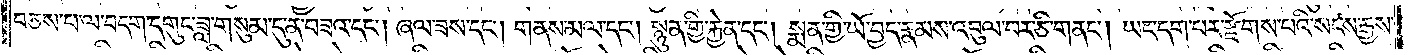བཅས་པ་ལ་བདག་དགུང་ཟླ་གསུམ་དུ་ན་བཟའ་དང༌། ཞལ་ཟས་དང༌། གནས་མལ་དང༌། སྙུན་གྱི་རྐྱེན་དང༌། སྨན་གྱི་ཡོ་བྱད་རྣམས་འབུལ་བར་ཅི་གནང༌། ཡང་དག་པར་རྫོགས་པའི་སངས་རྒྱས་
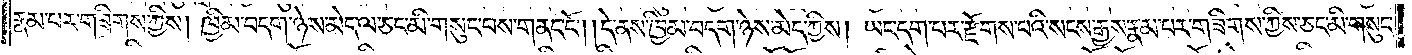རྣམ་པར་གཟིགས་ཀྱིས། ཁྱིམ་བདག་ཉེས་མེད་ལ་ཅང་མི་གསུང་བས་གནང་ངོ༌། །དེ་ནས་ཁྱིམ་བདག་ཉེས་མེད་ཀྱིས། ཡང་དག་པར་རྫོགས་པའི་སངས་རྒྱས་རྣམ་པར་གཟིགས་ཀྱིས་ཅང་མི་གསུང་
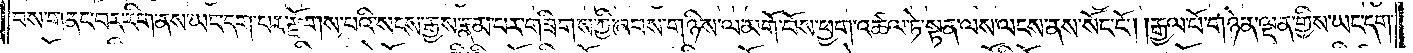བས་གནང་བར་རིག་ནས་ཡང་དག་པར་རྫོགས་པའི་སངས་རྒྱས་རྣམ་པར་གཟིགས་ཀྱི་ཞབས་གཉིས་ལ་མགོ་བོས་ཕྱག་འཚལ་ཏེ་སྟན་ལས་ལངས་ནས་སོང་ངོ༌། །རྒྱལ་པོ་གཉེན་ལྡན་གྱིས་ཡང་དག་
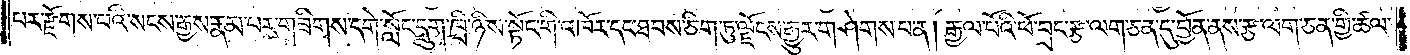པར་རྫོགས་པའི་སངས་རྒྱས་རྣམ་པར་གཟིགས་དགེ་སློང་དྲུག་ཁྲི་ཉིས་སྟོང་གི་འཁོར་དང་ཐབས་ཅིག་ཏུ་ལྗོངས་རྒྱུར་གཤེགས་པ་ན། རྒྱལ་པོའི་ཕོ་བྲང་རྩ་ལག་ཅན་དུ་བྱོན་ནས་རྩ་ལག་ཅན་གྱི་ཚལ་
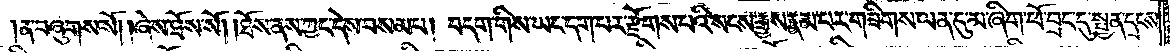ན་བཞུགས་སོ། །ཞེས་ཐོས་སོ། །ཐོས་ནས་ཀྱང་དེས་བསམ་པ། བདག་གིས་ཡང་དག་པར་རྫོགས་པའི་སངས་རྒྱས་རྣམ་པར་གཟིགས་ལན་དུ་མ་ཞིག་ཕོ་བྲང་དུ་སྤྱན་དྲངས་
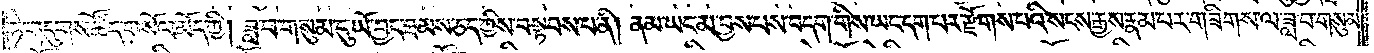ཏེ་གདུགས་ཚོད་གསོལ་མོད་ཀྱི། ཟླ་བ་གསུམ་དུ་ཡོ་བྱད་ཐམས་ཅད་ཀྱིས་བསྟབས་པ་ནི། ནམ་ཡང་མ་བྱས་པས་བདག་གིས་ཡང་དག་པར་རྫོགས་པའི་སངས་རྒྱས་རྣམ་པར་གཟིགས་ལ་ཟླ་བ་གསུམ་
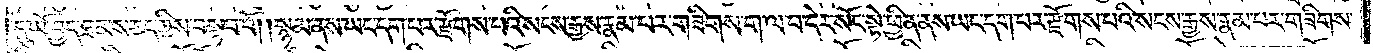དུ་ཡོ་བྱད་ཐམས་ཅད་ཀྱིས་བསྟབ་བོ། །སྙམ་ནས་ཡང་དག་པར་རྫོགས་པའི་སངས་རྒྱས་རྣམ་པར་གཟིགས་ག་ལ་བ་དེར་སོང་སྟེ་ཕྱིན་ནས་ཡང་དག་པར་རྫོགས་པའི་སངས་རྒྱས་རྣམ་པར་གཟིགས་
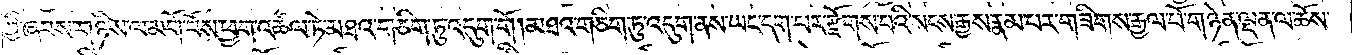ཀྱི་ཞབས་གཉིས་ལ་མགོ་བོས་ཕྱག་འཚལ་ཏེ་མཐའ་གཅིག་ཏུ་འདུག་གོ།མཐའ་གཅིག་ཏུ་འདུག་ནས་ཡང་དག་པར་རྫོགས་པའི་སངས་རྒྱས་རྣམ་པར་གཟིགས་རྒྱལ་པོ་གཉེན་ལྡན་ལ་ཆོས་
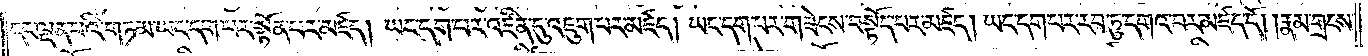དང་ལྡན་པའི་གཏམ་ཡང་དག་པར་སྟོན་པར་མཛད། ཡང་དག་པར་འཛིན་དུ་འཇུག་པར་མཛད། ཡང་དག་པར་གཟེངས་བསྟོད་པར་མཛད། ཡང་དག་པར་རབ་ཏུ་དགའ་བར་མཛད་དོ། །རྣམ་གྲངས་
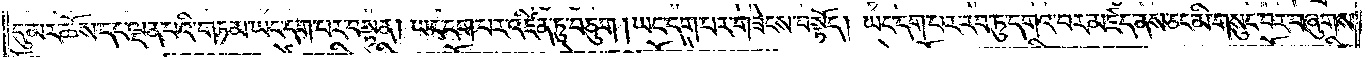དུ་མར་ཆོས་དང་ལྡན་པའི་གཏམ་ཡང་དག་པར་བསྟན། ཡང་དག་པར་འཛིན་ཏུ་བཅུག །ཡང་དག་པར་གཟེངས་བསྟོད། ཡང་དག་པར་རབ་ཏུ་དགའ་བར་མཛད་ནས་ཅང་མི་གསུང་བར་བཞུགས་
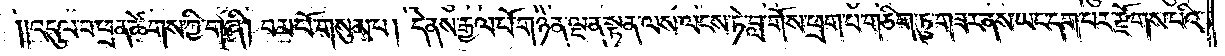༎འདུལ་བ་ཕྲན་ཚེགས་ཀྱི་གཞི། བམ་པོ་གསུམ་པ། དེ་ནས་རྒྱལ་པོ་གཉེན་ལྡན་སྟན་ལས་ལངས་ཏེ་བླ་གོས་ཕྲག་པ་གཅིག་ཏུ་གཟར་ནས་ཡང་དག་པར་རྫོགས་པའི་
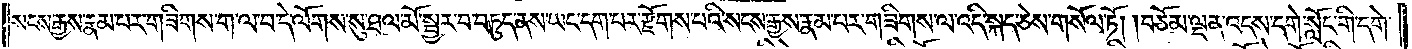སངས་རྒྱས་རྣམ་པར་གཟིགས་ག་ལ་བ་དེ་ལོགས་སུ་ཐལ་མོ་སྦྱར་བ་བཏུད་ནས་ཡང་དག་པར་རྫོགས་པའི་སངས་རྒྱས་རྣམ་པར་གཟིགས་ལ་འདི་སྐད་ཅེས་གསོལ་ཏོ། །བཅོམ་ལྡན་འདས་དགེ་སློང་གི་དགེ་
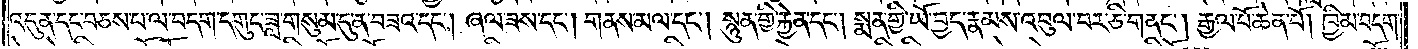འདུན་དང་བཅས་པ་ལ་བདག་དགུང་ཟླ་གསུམ་དུ་ན་བཟའ་དང༌། ཞལ་ཟས་དང༌། གནས་མལ་དང༌། སྙུན་གྱི་རྐྱེན་དང༌། སྨན་གྱི་ཡོ་བྱད་རྣམས་འབུལ་བར་ཅི་གནང༌། རྒྱལ་པོ་ཆེན་པོ། ཁྱིམ་བདག་
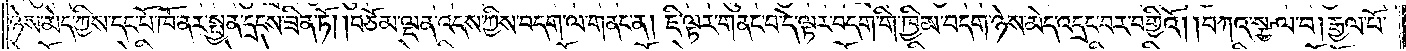ཉེས་མེད་ཀྱིས་དང་པོ་ཁོ་ནར་སྤྱན་དྲངས་ཟིན་ཏོ། །བཅོམ་ལྡན་འདས་ཀྱིས་བདག་ལ་གནང་ན། ཇི་ལྟར་གནང་བ་དེ་ལྟར་བདག་གི་ཁྱིམ་བདག་ཉེས་མེད་འདྲང་བར་བགྱིའོ། །བཀའ་སྩལ་པ། རྒྱལ་པོ་
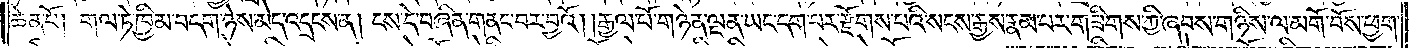ཆེན་པོ། གལ་ཏེ་ཁྱིམ་བདག་ཉེས་མེད་འདྲངས་ན། ངས་དེ་བཞིན་གནང་བར་བྱའོ། །རྒྱལ་པོ་གཉེན་ལྡན་ཡང་དག་པར་རྫོགས་པའི་སངས་རྒྱས་རྣམ་པར་གཟིགས་ཀྱི་ཞབས་གཉིས་ལ་མགོ་བོས་ཕྱག་
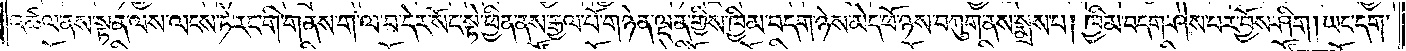འཚལ་ནས་སྟན་ལས་ལངས་ཏེ་རང་གི་གནས་ག་ལ་བ་དེར་སོང་སྟེ་ཕྱིན་ནས་རྒྱལ་པོ་གཉེན་ལྡན་གྱིས་ཁྱིམ་བདག་ཉེས་མེད་ཕོ་ཉས་བཀུག་ནས་སྨྲས་པ། ཁྱིམ་བདག་ཤེས་པར་བྱོས་ཤིག །ཡང་དག་
